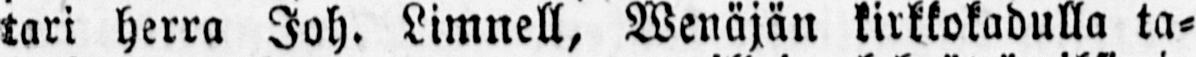tari herra Joh. Limnell, Wenäjän kirkkokadulla ta-
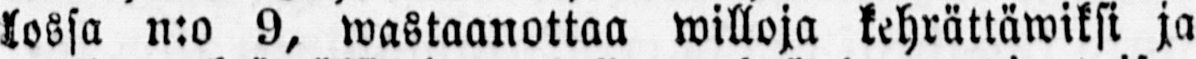lossa n:o 9, wastaanottaa willoja kehrättäwiksi ja
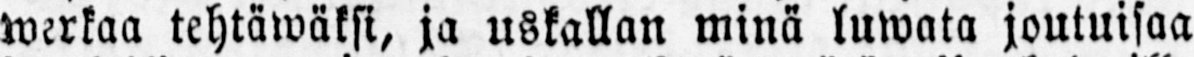werkaa tehtäwäksi, ja uskallan minä luwata joutuisaa
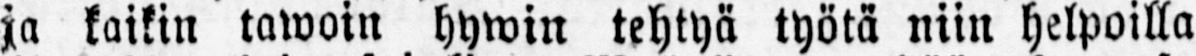ja kaikin tawoin hywin tehtyä työtä niin helpoilla
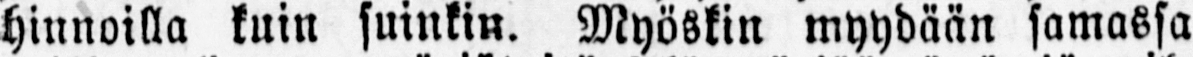hinnoilla kuin suinkin. Myöskin myydään samassa
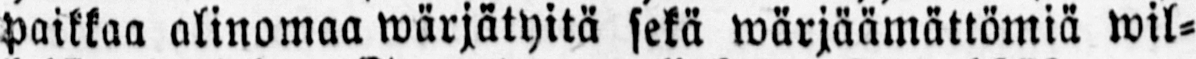paikkaa alinomaa wärjätyitä sekä wärjäämättömiä wil-
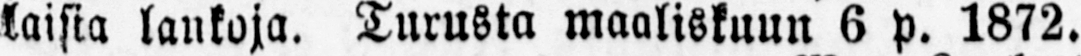laisia lankoja. Turusta maaliskuun 6 p. 1872.
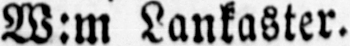W:m Lankaster.
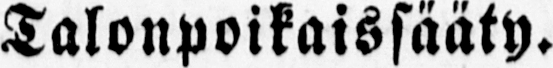Talonpoikaissääty.
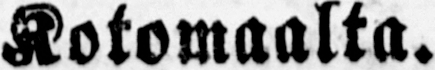Kotomaalta.
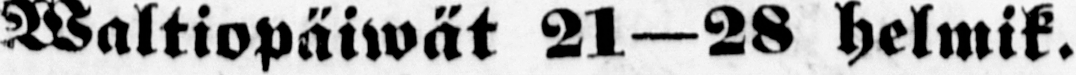Waltiopäiwät 21—28 helmik.
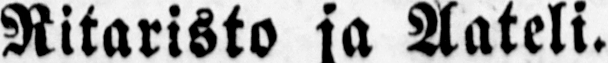Ritaristo ja Aateli.
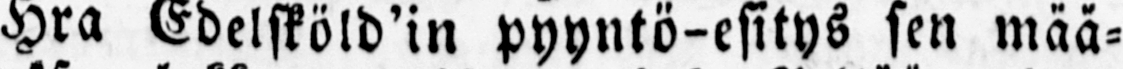Hra Edelsköld’in pyyntö-esitys sen mää-
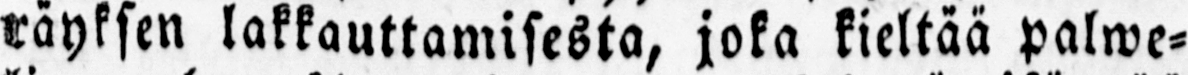räyksen lakkauttamisesta, joka kieltää palwe-
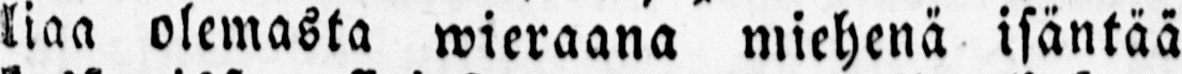liaa olemasta wieraana miehenä isäntää
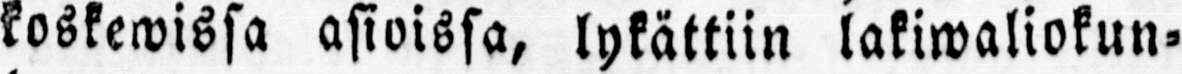koskewissa asioissa, lykättiin lakiwaliokun-
